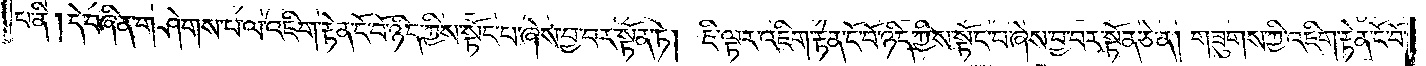པ་ནི། དེ་བཞིན་གཤེགས་པ་ལ་འཇིག་རྟེན་ངོ་བོ་ཉིད་ཀྱིས་སྟོང་པ་ཞེས་བྱ་བར་སྟོན་ཏེ། །ཇི་ལྟར་འཇིག་རྟེན་ངོ་བོ་ཉིད་ཀྱིས་སྟོང་པ་ཞེས་བྱ་བར་སྟོན་ཅེ་ན། གཟུགས་ཀྱི་འཇིག་རྟེན་ངོ་བོ་
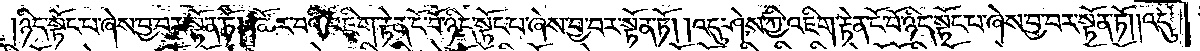ཉིད་སྟོང་པ་ཞེས་བྱ་བར་སྟོན་ཏོ། །ཚོར་བའི་འཇིག་རྟེན་ངོ་བོ་ཉིད་སྟོང་པ་ཞེས་བྱ་བར་སྟོན་ཏོ། །འདུ་ཤེས་ཀྱི་འཇིག་རྟེན་ངོ་བོ་ཉིད་སྟོང་པ་ཞེས་བྱ་བར་སྟོན་ཏོ། །འདུ་
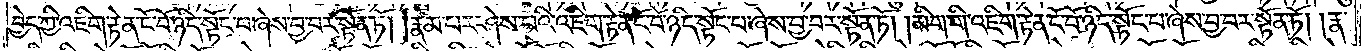བྱེད་ཀྱི་འཇིག་རྟེན་ངོ་བོ་ཉིད་སྟོང་པ་ཞེས་བྱ་བར་སྟོན་ཏོ། །རྣམ་པར་ཤེས་པའི་འཇིག་རྟེན་ངོ་བོ་ཉིད་སྟོང་པ་ཞེས་བྱ་བར་སྟོན་ཏོ། །མིག་གི་འཇིག་རྟེན་ངོ་བོ་ཉིད་སྟོང་པ་ཞེས་བྱ་བར་སྟོན་ཏོ། །རྣ་
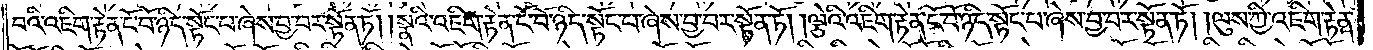བའི་འཇིག་རྟེན་ངོ་བོ་ཉིད་སྟོང་པ་ཞེས་བྱ་བར་སྟོན་ཏོ། །སྣའི་འཇིག་རྟེན་ངོ་བོ་ཉིད་སྟོང་པ་ཞེས་བྱ་བར་སྟོན་ཏོ། །ལྕེའི་འཇིག་རྟེན་ངོ་བོ་ཉིད་སྟོང་པ་ཞེས་བྱ་བར་སྟོན་ཏོ། །ལུས་ཀྱི་འཇིག་རྟེན་
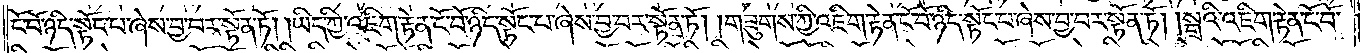ངོ་བོ་ཉིད་སྟོང་པ་ཞེས་བྱ་བར་སྟོན་ཏོ། །ཡིད་ཀྱི་འཇིག་རྟེན་ངོ་བོ་ཉིད་སྟོང་པ་ཞེས་བྱ་བར་སྟོན་ཏོ། །གཟུགས་ཀྱི་འཇིག་རྟེན་ངོ་བོ་ཉིད་སྟོང་པ་ཞེས་བྱ་བར་སྟོན་ཏོ། །སྒྲའི་འཇིག་རྟེན་ངོ་བོ་
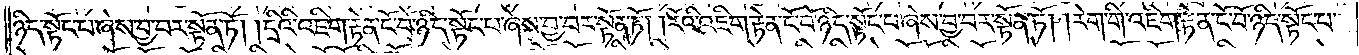ཉིད་སྟོང་པ་ཞེས་བྱ་བར་སྟོན་ཏོ། །དྲིའི་འཇིག་རྟེན་ངོ་བོ་ཉིད་སྟོང་པ་ཞེས་བྱ་བར་སྟོན་ཏོ། །རོའི་འཇིག་རྟེན་ངོ་བོ་ཉིད་སྟོང་པ་ཞེས་བྱ་བར་སྟོན་ཏོ། །རེག་གི་འཇིག་རྟེན་ངོ་བོ་ཉིད་སྟོང་པ་
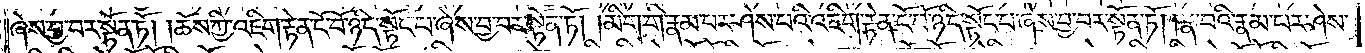ཞེས་བྱ་བར་སྟོན་ཏོ། །ཆོས་ཀྱི་འཇིག་རྟེན་ངོ་བོ་ཉིད་སྟོང་པ་ཞེས་བྱ་བར་སྟོན་ཏོ། །མིག་གི་རྣམ་པར་ཤེས་པའི་འཇིག་རྟེན་ངོ་བོ་ཉིད་སྟོང་པ་ཞེས་བྱ་བར་སྟོན་ཏོ། །རྣ་བའི་རྣམ་པར་ཤེས་
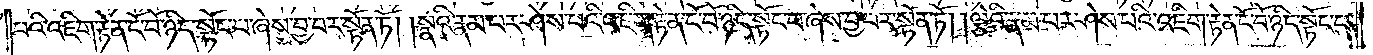པའི་འཇིག་རྟེན་ངོ་བོ་ཉིད་སྟོང་པ་ཞེས་བྱ་བར་སྟོན་ཏོ། །སྣའི་རྣམ་པར་ཤེས་པའི་འཇིག་རྟེན་ངོ་བོ་ཉིད་སྟོང་པ་ཞེས་བྱ་བར་སྟོན་ཏོ། །ལྕེའི་རྣམ་པར་ཤེས་པའི་འཇིག་རྟེན་ངོ་བོ་ཉིད་སྟོང་པ་
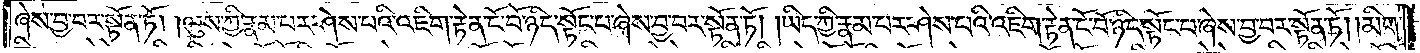ཞེས་བྱ་བར་སྟོན་ཏོ། །ལུས་ཀྱི་རྣམ་པར་ཤེས་པའི་འཇིག་རྟེན་ངོ་བོ་ཉིད་སྟོང་པ་ཞེས་བྱ་བར་སྟོན་ཏོ། །ཡིད་ཀྱི་རྣམ་པར་ཤེས་པའི་འཇིག་རྟེན་ངོ་བོ་ཉིད་སྟོང་པ་ཞེས་བྱ་བར་སྟོན་ཏོ། །མིག་
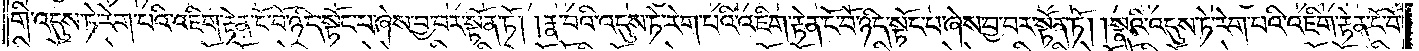གི་འདུས་ཏེ་རེག་པའི་འཇིག་རྟེན་ངོ་བོ་ཉིད་སྟོང་པ་ཞེས་བྱ་བར་སྟོན་ཏོ། །རྣ་བའི་འདུས་ཏེ་རེག་པའི་འཇིག་རྟེན་ངོ་བོ་ཉིད་སྟོང་པ་ཞེས་བྱ་བར་སྟོན་ཏོ། །སྣའི་འདུས་ཏེ་རེག་པའི་འཇིག་རྟེན་ངོ་བོ་
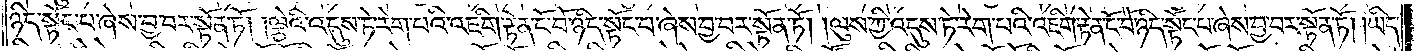ཉིད་སྟོང་པ་ཞེས་བྱ་བར་སྟོན་ཏོ། །ལྕེའི་འདུས་ཏེ་རེག་པའི་འཇིག་རྟེན་ངོ་བོ་ཉིད་སྟོང་པ་ཞེས་བྱ་བར་སྟོན་ཏོ། །ལུས་ཀྱི་འདུས་ཏེ་རེག་པའི་འཇིག་རྟེན་ངོ་བོ་ཉིད་སྟོང་པ་ཞེས་བྱ་བར་སྟོན་ཏོ། །ཡིད་
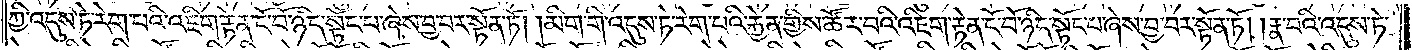ཀྱི་འདུས་ཏེ་རེག་པའི་འཇིག་རྟེན་ངོ་བོ་ཉིད་སྟོང་པ་ཞེས་བྱ་བར་སྟོན་ཏོ། །མིག་གི་འདུས་ཏེ་རེག་པའི་རྐྱེན་གྱིས་ཚོར་བའི་འཇིག་རྟེན་ངོ་བོ་ཉིད་སྟོང་པ་ཞེས་བྱ་བར་སྟོན་ཏོ། །རྣ་བའི་འདུས་ཏེ་
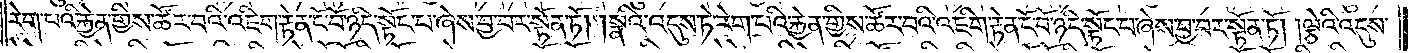རེག་པའི་རྐྱེན་གྱིས་ཚོར་བའི་འཇིག་རྟེན་ངོ་བོ་ཉིད་སྟོང་པ་ཞེས་བྱ་བར་སྟོན་ཏོ། །སྣའི་འདུས་ཏེ་རེག་པའི་རྐྱེན་གྱིས་ཚོར་བའི་འཇིག་རྟེན་ངོ་བོ་ཉིད་སྟོང་པ་ཞེས་བྱ་བར་སྟོན་ཏོ། །ལྕེའི་འདུས་
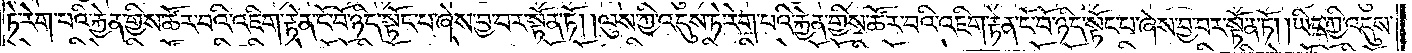ཏེ་རེག་པའི་རྐྱེན་གྱིས་ཚོར་བའི་འཇིག་རྟེན་ངོ་བོ་ཉིད་སྟོང་པ་ཞེས་བྱ་བར་སྟོན་ཏོ། །ལུས་ཀྱི་འདུས་ཏེ་རེག་པའི་རྐྱེན་གྱིས་ཚོར་བའི་འཇིག་རྟེན་ངོ་བོ་ཉིད་སྟོང་པ་ཞེས་བྱ་བར་སྟོན་ཏོ། །ཡིད་ཀྱི་འདུས་
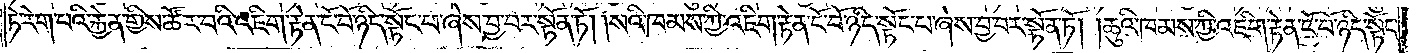ཏེ་རེག་པའི་རྐྱེན་གྱིས་ཚོར་བའི་འཇིག་རྟེན་ངོ་བོ་ཉིད་སྟོང་པ་ཞེས་བྱ་བར་སྟོན་ཏོ། །སའི་ཁམས་ཀྱི་འཇིག་རྟེན་ངོ་བོ་ཉིད་སྟོང་པ་ཞེས་བྱ་བར་སྟོན་ཏོ། །ཆུའི་ཁམས་ཀྱི་འཇིག་རྟེན་ངོ་བོ་ཉིད་སྟོང་
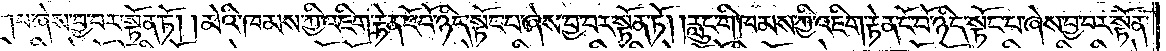པ་ཞེས་བྱ་བར་སྟོན་ཏོ། །མེའི་ཁམས་ཀྱི་འཇིག་རྟེན་ངོ་བོ་ཉིད་སྟོན་པ་ཞེས་བྱ་བར་སྟོན་ཏོ། །རླུང་གི་ཁམས་ཀྱི་འཇིག་རྟེན་ངོ་བོ་ཉིད་སྟོང་པ་ཞེས་བྱ་བར་སྟོན་
